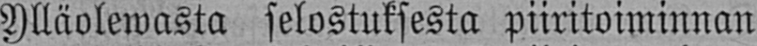Ylläolewasta selostuksesta piiritoiminnan
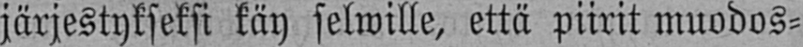järjestykseksi käy selwille, että piirit muodos-
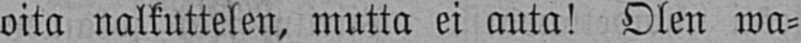oita nalkuttelen, mutta ei auta! Olen wa-
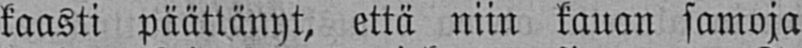kaasti päättänyt, että niin kauan samoja
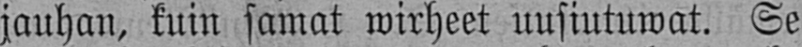jauhan, kuin samat wirheet uusiutuwat. Se
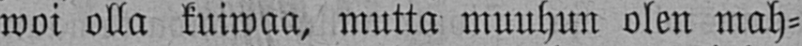woi olla kuiwaa, mutta muuhun olen mah-
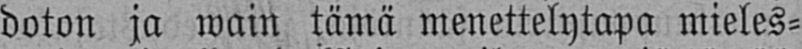doton ja wain tämä menettelytapa mieles-
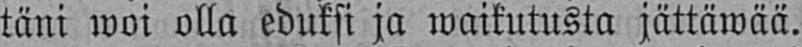täni woi olla eduksi ja waikutusta jättäwää.
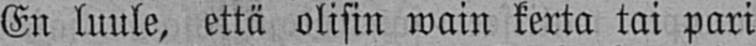En luule, että olisin wain kerta tai pari
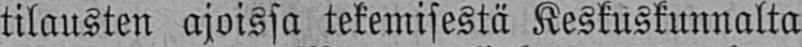tilausten ajoissa tekemisestä Keskuskunnalta
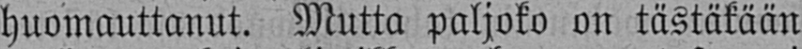huomauttanut. Mutta paljoko on tästäkään
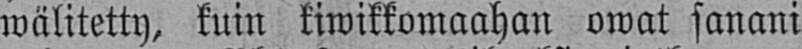wälitetty, kuin kiwikkomaahan owat sanani
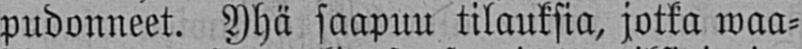pudonneet. Yhä saapuu tilauksia, jotka waa-
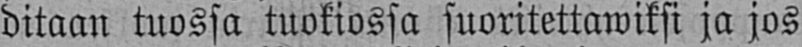ditaan tuossa tuokiossa suoritettawiksi ja jos
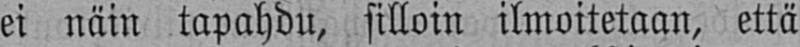ei näin tapahdu, silloin ilmoitetaan, että
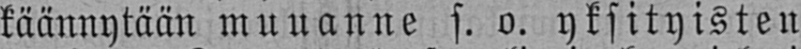käännytään muuanne s. o. yksityisten
